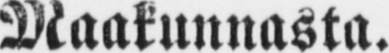Maakunnasta.
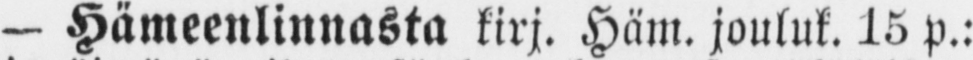— Hämeenlinnasta kirj. Häm. jouluk. 15 p.:
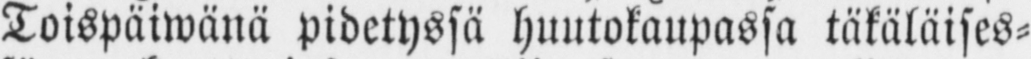Toispäiwänä pidetyssä huutokaupassa täkäläises-
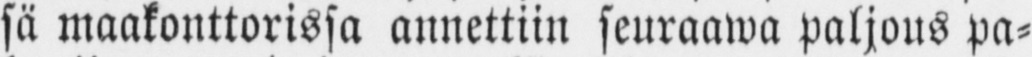sä maakonttorissa annettiin seuraawa paljous pa-
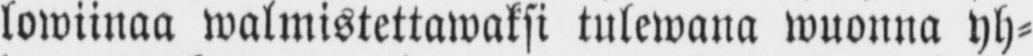lowiinaa walmistettawaksi tulewana wuonna yh-
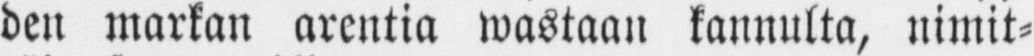den markan arentia wastaan kannulta, nimit-
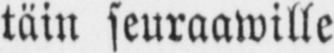täin seuraawille
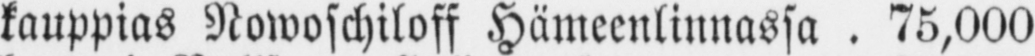kauppias Nowoschiloff Hämeenlinnassa 75,000
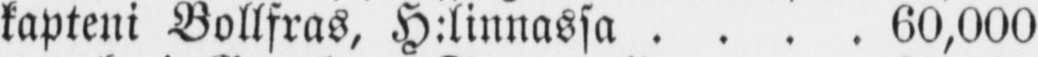kapteni Bollfras, H:linnassa 60,000
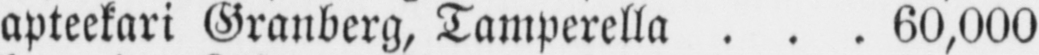apteekari Granberg, Tamperella 60,000
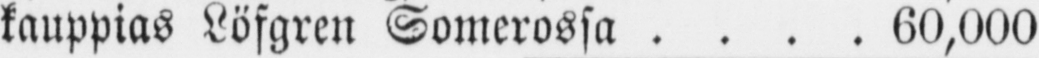kauppias Löfgren Somerossa 60,000
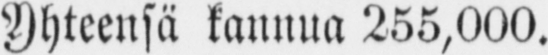Yhteensä kannua 255,000.
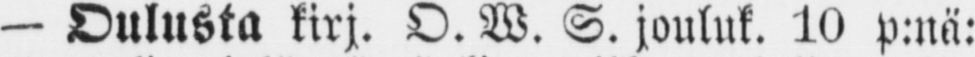— Oulusta kirj. O. W. S. jouluk. 10 p.nä:
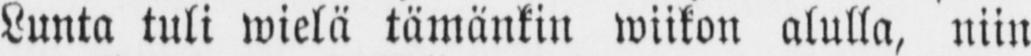Lunta tuli wielä tämänkin wiikon alulla, niin
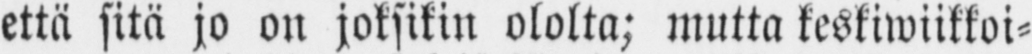että sitä jo on joksikin ololta; mutta keskiwiikkoi-
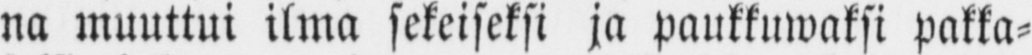na muuttui ilma sekeiseksi ja paukkuwaksi pakka-
